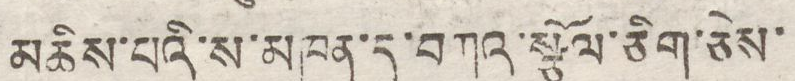མཆིས་པའི་ས་མཁན་དུ་བཀའ་སྩོལ་ཅིག་ཅེས་
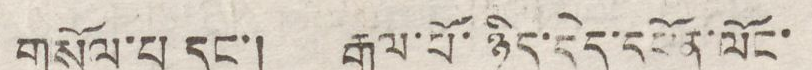གསོལ་པ དང་། རྒྱལ་པོ་ཉིད་དེད་དཔོན་ལོང་
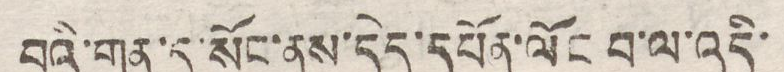བའི་གན་དུ་སོང་ནས་དེད་དཔོན་ལོང བ་ལ་འདི་
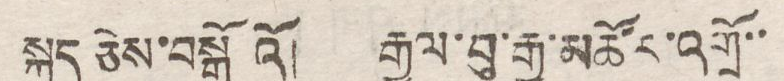སྐད ཅེས་བསྒོ འོ། རྒྱལ་བུ་རྒྱ་མཚོར་འགྲོ་་
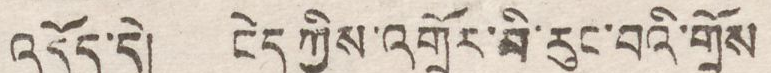འདོད་དེ། ངེད ཀྱིས་འགྲོར་མི་རུང་བའི་གྲོས
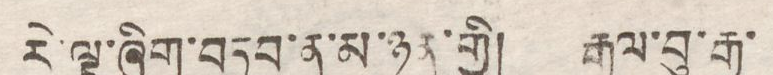རེ་ལྟ་ཞིག་བཏབ་ན་མ་ཉན་གྱི། རྒྱལ་བུ་རྒྱ་
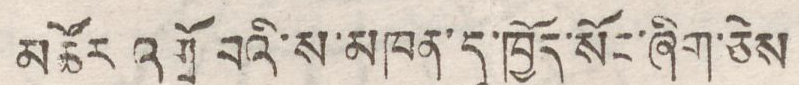མཚོར འགྲོ བའི་ས་མཁན་དུ་ཁྱོད་སོང་ཞིག་ཅེས
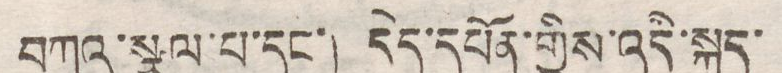བཀའ་སྩལ་པ་དང་། དེད་དཔོན་གྱིས་འདི་སྐད་
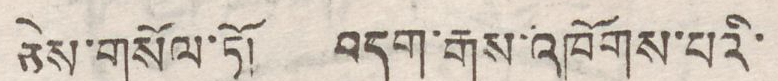ཅེས་གསོལ་ཏོ། བདག་རྒས་འཁོགས་པའི་
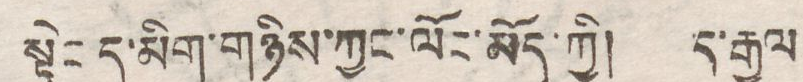སྟེང་དུ་མིག་གཉིས་ཀྱང་ལོང་མོད་ཀྱི། ད་རྒྱལ
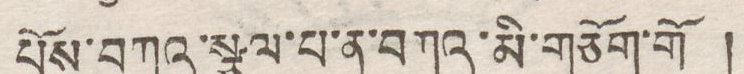པོས་བཀའ་སྩལ་པ་ན་བཀའ་མི་གཅོག་གོ །
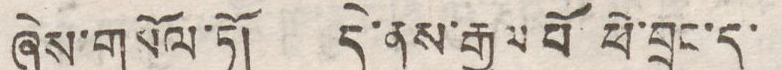ཞེས་གསོལ་ཏོ། དེ་ནས་རྒྱལ པོ་ཕོ་བྲང་དུ་
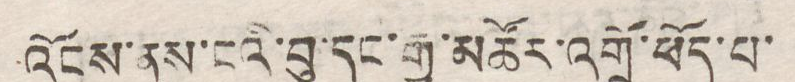འོངས་ནས་ངའི་བུ་དང་རྒྱ་མཚོར་འགྲོ་ཕོད་པ་
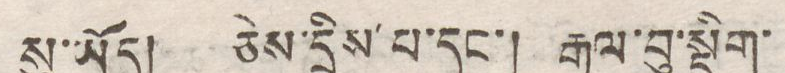སུ་ཡོད། ཅེས་དྲིས་པ་དང་། རྒྱལ་བུ་སྡིག་
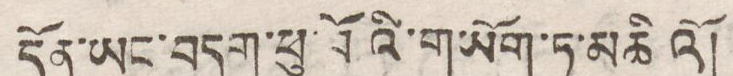དོན་ཡང་བདག་ཕུ་བོའི་གཡོག་ཏུ་མཆིའོ།
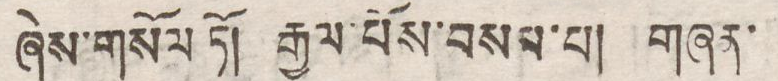ཞེས་གསོལ ཏོ། རྒྱལ་པོས་བསམ་པ། གཞན་
